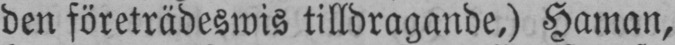den företrädeswis tilldragande,) Haman,
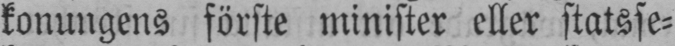konungens förste minister eller statsse-
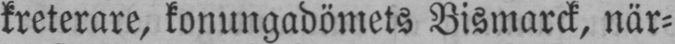kreterare, konungadömets Bismarck, när-
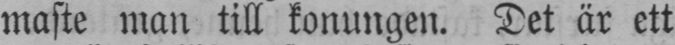maste man till konungen. Det är ett
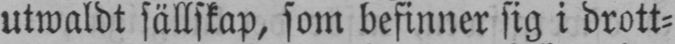utwaldt sällskap, som befinner sig i drott-
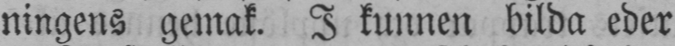ningens gemak. I kunnen bilda eder
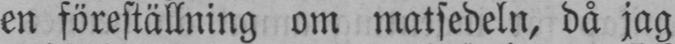en föreställning om matsedeln, då jag
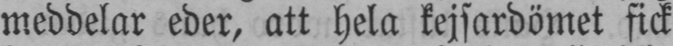meddelar eder, att hela kejsardömet fick
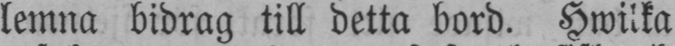lemna bidrag till detta bord. Hwilka
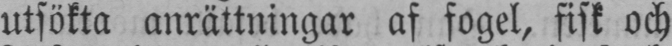utsökta anrättningar af fogel, fisk och
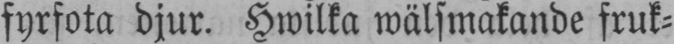fyrfota djur. Hwilka wälsmakande fruk-
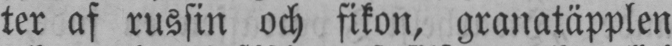ter af russin och fikon, granatäpplen
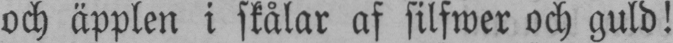och äpplen i skålar af silfwer och guld!
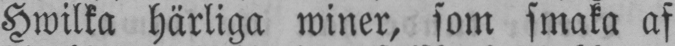Hwilka härliga winer, som smaka af
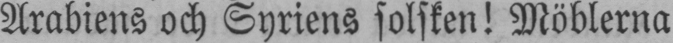Arabiens och Syriens solsken! Möblerna
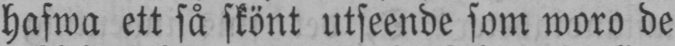hafwa ett så skönt utseende som woro de
